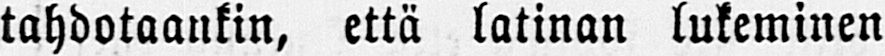tahdotaankin, että latinan lukeminen
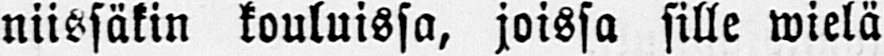niissäkin kouluissa, joissa sille wielä
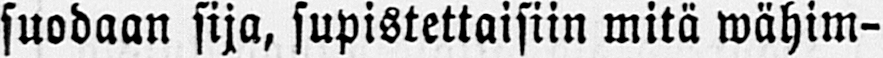suodaan sija, supistettaisiin mitä wähim-
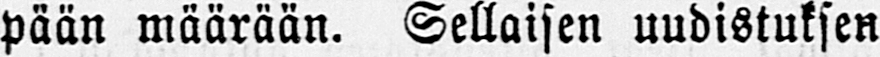pään määrään. Sellaisen uudistuksen
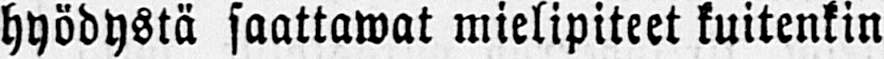hyödystä saattawat mielipiteet kuitenkin
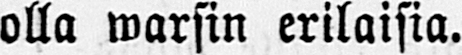olla warsin erilaisia.
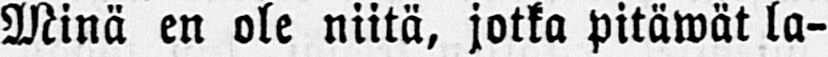Minä en ole niitä, jotka pitäwät la-
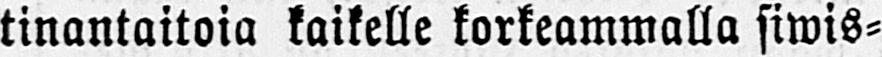tinantaitoia kaikelle korkeammalla siwis-
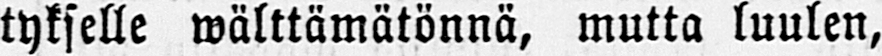tykselle wälttämätönnä, mutta luulen,
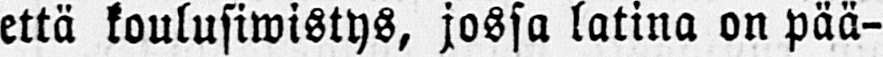että koulusivistys, jossa latina on pää-
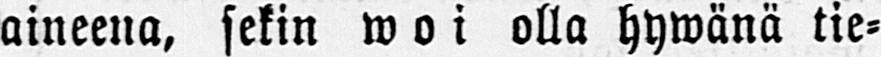aineena, sekin woi olla hywänä tie-
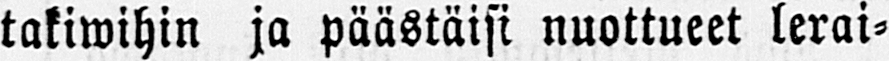takiwihin ja päästäisi nuottueet lerai-
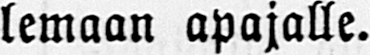lemaan apajalle.
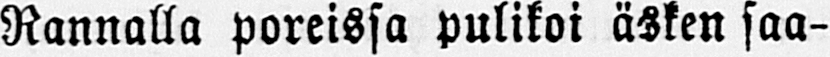Rannalla poreissa pulikoi äsken saa-
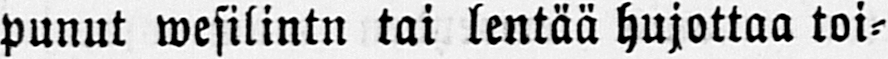punut wesilintn tai lentää hujottaa toi-
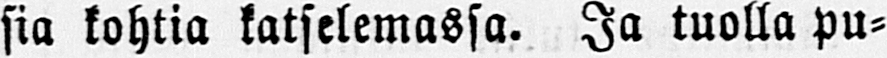sia kohtia katselemassa. Ja tuolla pu-
